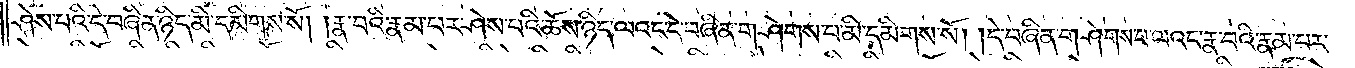ཤེས་པའི་དེ་བཞིན་ཉིད་མི་དམིགས་སོ། །རྣ་བའི་རྣམ་པར་ཤེས་པའི་ཆོས་ཉིད་ལའང་དེ་བཞིན་གཤེགས་པ་མི་དམིགས་སོ། །དེ་བཞིན་གཤེགས་པ་ལའང་རྣ་བའི་རྣམ་པར་
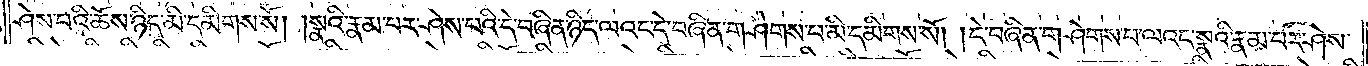ཤེས་པའི་ཆོས་ཉིད་མི་དམིགས་སོ། །སྣའི་རྣམ་པར་ཤེས་པའི་དེ་བཞིན་ཉིད་ལའང་དེ་བཞིན་གཤེགས་པ་མི་དམིགས་སོ། །དེ་བཞིན་གཤེགས་པ་ལའང་སྣའི་རྣམ་པར་ཤེས་
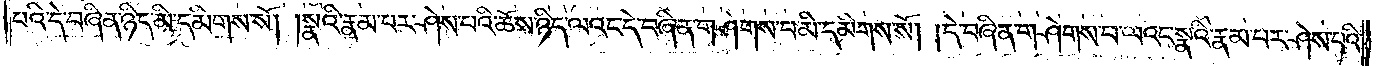པའི་དེ་བཞིན་ཉིད་མི་དམིགས་སོ། །སྣའི་རྣམ་པར་ཤེས་པའི་ཆོས་ཉིད་ལའང་དེ་བཞིན་གཤེགས་པ་མི་དམིགས་སོ། །དེ་བཞིན་གཤེགས་པ་ལའང་སྣའི་རྣམ་པར་ཤེས་པའི་
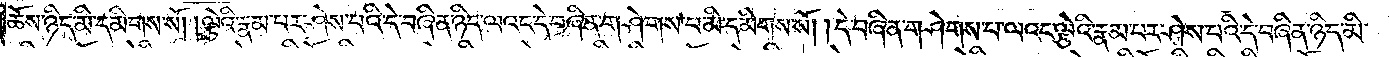ཆོས་ཉིད་མི་དམིགས་སོ། །ལྕེའི་རྣམ་པར་ཤེས་པའི་དེ་བཞིན་ཉིད་ལའང་དེ་བཞིན་གཤེགས་པ་མི་དམིགས་སོ། །དེ་བཞིན་གཤེགས་པ་ལའང་ལྕེའི་རྣམ་པར་ཤེས་པའི་དེ་བཞིན་ཉིད་མི་
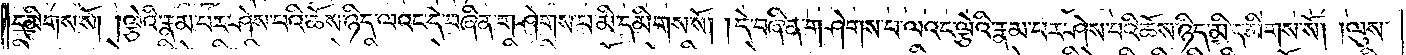དམིགས་སོ། །ལྕེའི་རྣམ་པར་ཤེས་པའི་ཆོས་ཉིད་ལའང་དེ་བཞིན་གཤེགས་པ་མི་དམིགས་སོ། །དེ་བཞིན་གཤེགས་པ་ལའང་ལྕེའི་རྣམ་པར་ཤེས་པའི་ཆོས་ཉིད་མི་དམིགས་སོ། །ལུས་
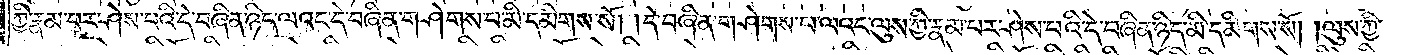ཀྱི་རྣམ་པར་ཤེས་པའི་དེ་བཞིན་ཉིད་ལའང་དེ་བཞིན་གཤེགས་པ་མི་དམིགས་སོ། །དེ་བཞིན་གཤེགས་པ་ལའང་ལུས་ཀྱི་རྣམ་པར་ཤེས་པའི་དེ་བཞིན་ཉིད་མི་དམིགས་སོ། །ལུས་ཀྱི་
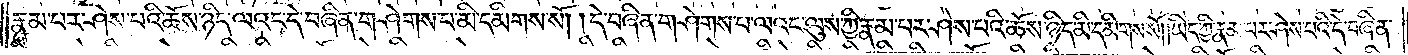རྣམ་པར་ཤེས་པའི་ཆོས་ཉིད་ལའང་དེ་བཞིན་གཤེགས་པ་མི་དམིགས་སོ། །དེ་བཞིན་གཤེགས་པ་ལའང་ལུས་ཀྱི་རྣམ་པར་ཤེས་པའི་ཆོས་ཉིད་མི་དམིགས་སོ། །ཡིད་ཀྱི་རྣམ་པར་ཤེས་པའི་དེ་བཞིན་
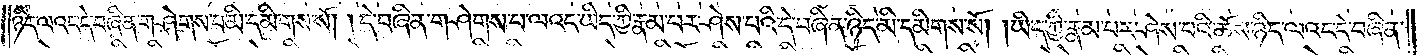ཉིད་ལའང་དེ་བཞིན་གཤེགས་པ་མི་དམིགས་སོ། །དེ་བཞིན་གཤེགས་པ་ལའང་ཡིད་ཀྱི་རྣམ་པར་ཤེས་པའི་དེ་བཞིན་ཉིད་མི་དམིགས་སོ། །ཡིད་ཀྱི་རྣམ་པར་ཤེས་པའི་ཆོས་ཉིད་ལའང་དེ་བཞིན་
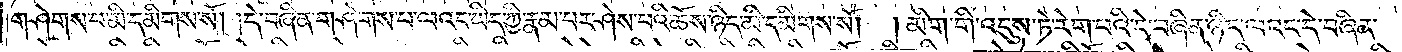གཤེགས་པ་མི་དམིགས་སོ། །དེ་བཞིན་གཤེགས་པ་ལའང་ཡིད་ཀྱི་རྣམ་པར་ཤེས་པའི་ཆོས་ཉིད་མི་དམིགས་སོ། །མིག་གི་འདུས་ཏེ་རེག་པའི་དེ་བཞིན་ཉིད་ལའང་དེ་བཞིན་
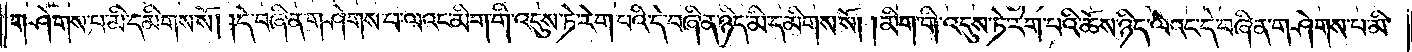གཤེགས་པ་མི་དམིགས་སོ། །དེ་བཞིན་གཤེགས་པ་ལའང་མིག་གི་འདུས་ཏེ་རེག་པའི་དེ་བཞིན་ཉིད་མི་དམིགས་སོ། །མིག་གི་འདུས་ཏེ་རེག་པའི་ཆོས་ཉིད་ལའང་དེ་བཞིན་གཤེགས་པ་མི་
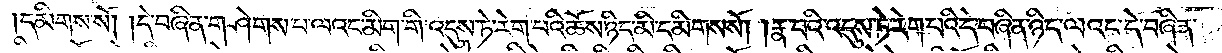དམིགས་སོ། །དེ་བཞིན་གཤེགས་པ་ལའང་མིག་གི་འདུས་ཏེ་རེག་པའི་ཆོས་ཉིད་མི་དམིགས་སོ། །རྣ་བའི་འདུས་ཏེ་རེག་པའི་དེ་བཞིན་ཉིད་ལའང་དེ་བཞིན་
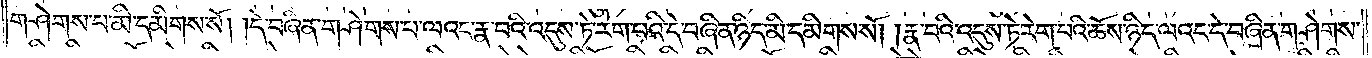གཤེགས་པ་མི་དམིགས་སོ། །དེ་བཞིན་གཤེགས་པ་ལའང་རྣ་བའི་འདུས་ཏེ་རེག་པའི་དེ་བཞིན་ཉིད་མི་དམིགས་སོ། །རྣ་བའི་འདུས་ཏེ་རེག་པའི་ཆོས་ཉིད་ལའང་དེ་བཞིན་གཤེགས་
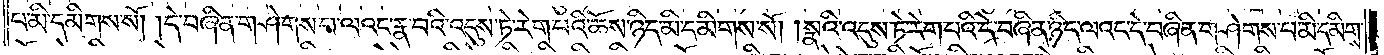པ་མི་དམིགས་སོ། །དེ་བཞིན་གཤེགས་པ་ལའང་རྣ་བའི་འདུས་ཏེ་རེག་པའི་ཆོས་ཉིད་མི་དམིགས་སོ། །སྣའི་འདུས་ཏེ་རེག་པའི་དེ་བཞིན་ཉིད་ལའང་དེ་བཞིན་གཤེགས་པ་མི་དམིགས་
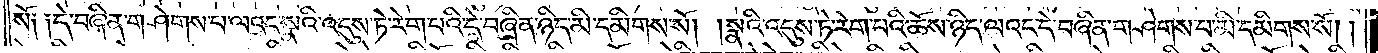སོ༏ ༏དེ་བཞིན་གཤེགས་པ་ལའང་སྣའི་འདུས་ཏེ་རེག་པའི་དེ་བཞིན་ཉིད་མི་དམིགས་སོ། །སྣའི་འདུས་ཏེ་རེག་པའི་ཆོས་ཉིད་ལའང་དེ་བཞིན་གཤེགས་པ་མི་དམིགས་སོ། །
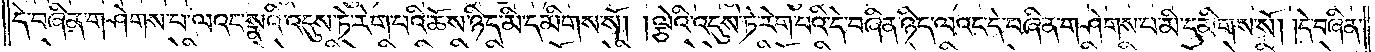དེ་བཞིན་གཤེགས་པ་ལའང་སྣའི་འདུས་ཏེ་རེག་པའི་ཆོས་ཉིད་མི་དམིགས་སོ། །ལྕེའི་འདུས་ཏེ་རེག་པའི་དེ་བཞིན་ཉིད་ལའང་དེ་བཞིན་གཤེགས་པ་མི་དམིགས་སོ། །དེ་བཞིན་
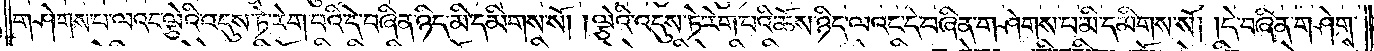གཤེགས་པ་ལའང་ལྕེའི་འདུས་ཏེ་རེག་པའི་དེ་བཞིན་ཉིད་མི་དམིགས་སོ། །ལྕེའི་འདུས་ཏེ་རེག་པའི་ཆོས་ཉིད་ལའང་དེ་བཞིན་གཤེགས་པ་མི་དམིགས་སོ། །དེ་བཞིན་གཤེགས་
